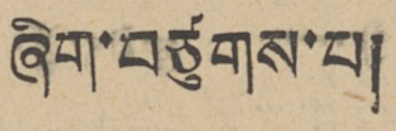ཞིག་བཙུགས་པ།
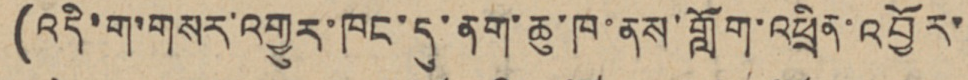(འདི་ག་གསར་འགྱུར་ཁང་དུ་ནག་ཆུ་ཁ་ནས་གློག་འཕྲིན་འབྱོར་
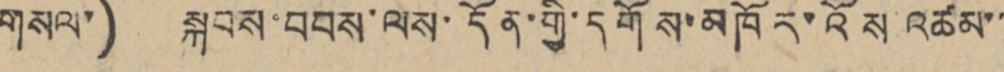གསལ་) སྐབས་བབས་ལས་དོན་གྱི་དགོས་མཁོར་འོས་འཚམ་་
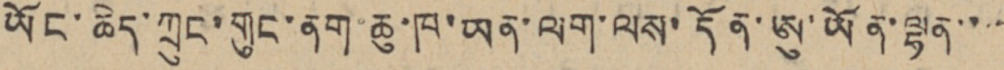ཡོང་ཆེད་ཀྲུང་གུང་ནག་ཆུ་ཁ་ཡན་ལག་ལས་དོན་ཨུ་ཡོན་ལྷན་་་་
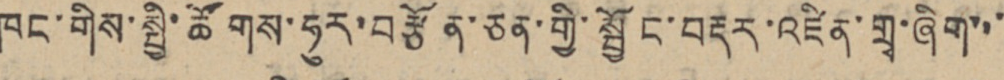ཁང་གིས་སྤྱི་ཚོགས་ཧུར་བརྩོན་ཅན་གྱི་སྦྱོང་བརྡར་འཛིན་གྲྭ་ཞིག་་་
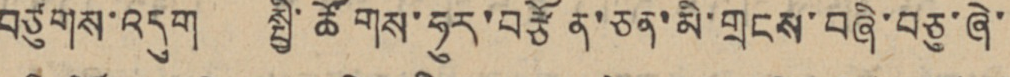བཙུགས་འདུག སྤྱི་ཚོགས་ཧུར་བརྩོན་ཅན་མི་གྲངས་བཞི་བཅུ་ཞེ་
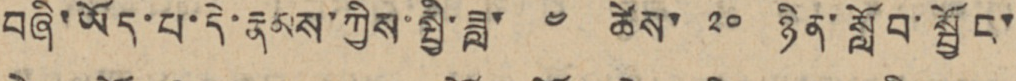བཞི་ཡོད་པ་དེ་རྣམས་ཀྱིས་སྤྱི་ཟླ་ ༤ ཚེས་ ༢༠ ཉིན་སློབ་སྦྱོང་
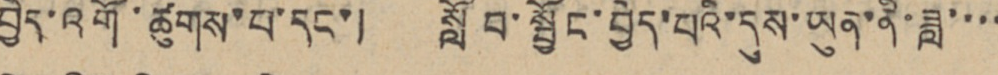བྱེད་འགོ་ཚུགས་པ་དང་། སློབ་སྦྱོང་བྱེད་པའི་དུས་ཡུན་ནི་ཟླ་་་་
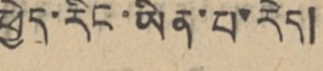ཕྱེད་རིང་ཡིན་པ་རེད།
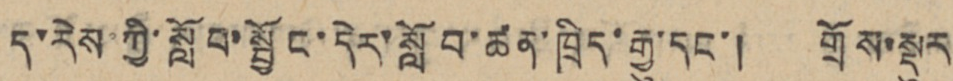ད་རེས་ཀྱི་སློབ་སྦྱོང་དེར་སློབ་ཚན་ཁྲིད་རྒྱུ་དང་། གྲོས་སྡུར
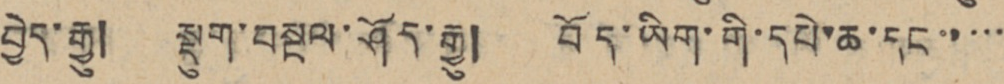བྱེད་རྒྱུ། སྡུག་བསྔལ་ཤོད་རྒྱུ། བོད་ཡིག་གི་དཔེ་ཆ་དང་་་་་
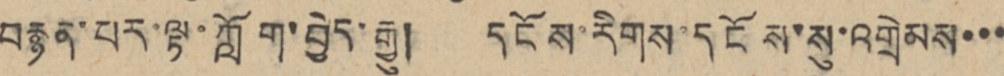བརྙན་པར་ལྟ་ཀློག་བྱེད་རྒྱུ། དངོས་རིགས་དངོས་སུ་འགྲེམས་་་
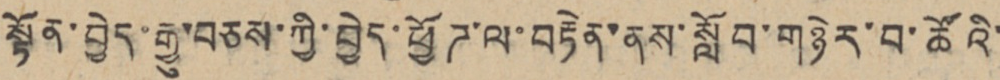སྟོན་བྱེད་རྒྱུ་བཅས་ཀྱི་བྱེད་ཕྱོཊ་ལ་བརྟེན་ནས་སློབ་གཉེར་བ་ཚོའི་
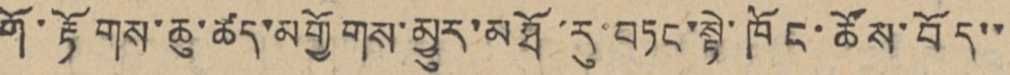གོ་རྟོགས་ཆུ་ཚད་མགྱོགས་མྱུར་མཐོ་རུ་བཏང་སྟེ་ཁོང་ཚོས་བོད་་
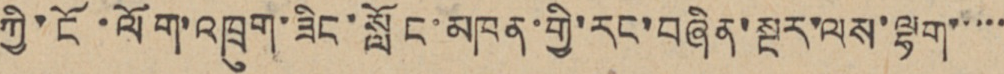ཀྱི་ངོ་ལོག་འཁྲུག་ཟིང་སློང་མཁན་གྱི་རང་བཞིན་སྔར་ལས་ལྷག་་་་་
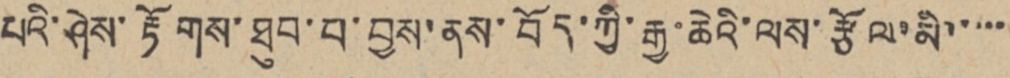པའི་ཤེས་རྟོགས་ཐུབ་པ་བྱས་ནས་བོད་ཀྱི་རྒྱ་ཆེའི་ལས་རྩོལ་མི་་་་་
